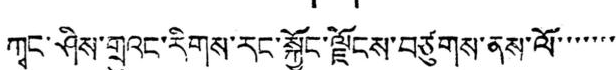ཀྭང་ཤིས་གྲུའང་རིགས་རང་སྐྱོང་ལྗོངས་བཙུགས་ནས་ལོ་་་་་་་
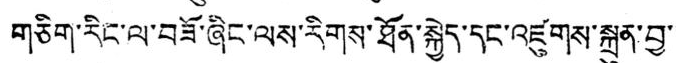གཅིག་རིང་ལ་བཟོ་ཞིང་ལས་རིགས་ཐོན་སྐྱེད་དང་འཛུགས་སྐྲུན་བྱ་་་
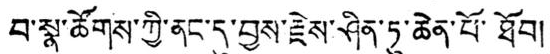བ་སྣ་ཚོགས་ཀྱི་ནང་དུ་བྱས་རྗེས་ཤིན་ཏུ་ཆེན་པོ་ཐོབ།
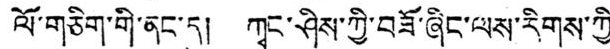ལོ་གཅིག་གི་ནང་དུ། ཀྭང་ཤིས་ཀྱི་བཟོ་ཞིང་ལས་རིགས་ཀྱི་
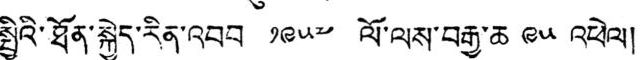སྤྱིའི་ཐོན་སྐྱེད་རིན་འབབ ༡༩༥༧ ལོ་ལས་བརྒྱ་ཆ ༩༥ འཕེལ།
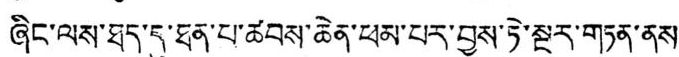ཞིང་ལས་ཐད་དུ་ཐན་པ་ཚབས་ཆེན་ཕམ་པར་བྱས་ཏེ་སྔར་གཏན་ནས་
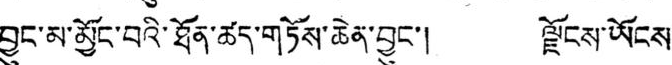བྱུང་མ་མྱོང་བའི་ཐོན་ཚད་གཏོས་ཆེན་བྱུང་། ལྗོངས་ཡོངས་
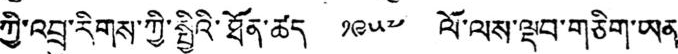ཀྱི་འབྲུ་རིགས་ཀྱི་སྤྱིའི་ཐོན་ཚད ༡༩༥༧ ལོ་ལས་ལྡབ་གཅིག་ཡན་
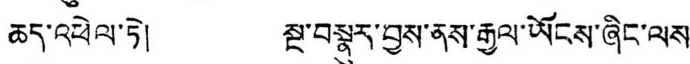ཆད་འཕེལ་ཏེ། སྔ་བསྣུར་བྱས་ནས་རྒྱལ་ཡོངས་ཞིང་ལས་
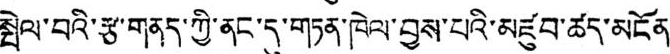སྤེལ་བའི་རྩ་གནད་ཀྱི་ནང་དུ་གཏན་ཁེལ་བྱས་པའི་མཛུབ་ཚད་མངོན་
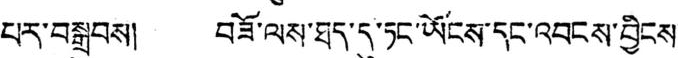པར་བསྒྲུབས། བཟོ་ལས་ཐད་དུ་ཏང་ཡོངས་དང་འབངས་བྱིངས་
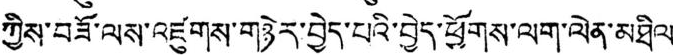ཀྱིས་བཟོ་ལས་འཛུགས་གཉེར་བྱེད་པའི་བྱེད་ཕྱོགས་ལག་ལེན་མཐིལ་
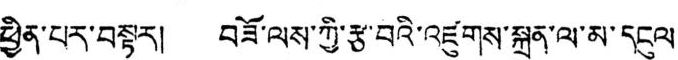ཕྱིན་པར་བསྟར། བཟོ་ལས་ཀྱི་རྩ་བའི་འཛུགས་སྐྲུན་ལ་མ་དངུལ་
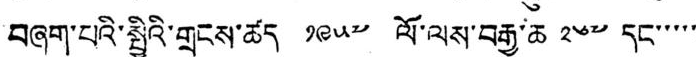བཞག་པའི་སྤྱིའི་གྲངས་ཚད ༡༩༥༧ ལོ་ལས་བརྒྱ་ཆ ༢༦༧ དང་་་་་
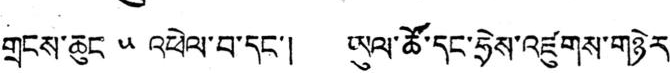གྲངས་ཆུང ༥ འཕེལ་བ་དང་། ཡུལ་ཚོ་དང་ཧྲེས་འཛུགས་གཉེར་
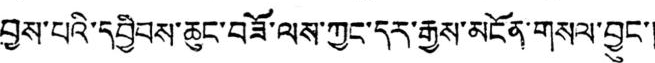བྱས་པའི་དབྱིབས་ཆུང་བཟོ་ལས་ཀྱང་དར་རྒྱས་མངོན་གསལ་བྱུང་།
